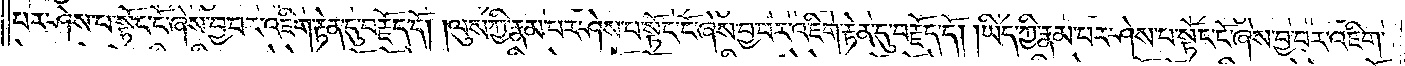པར་ཤེས་པ་སྟོང་ངོ་ཞེས་བྱ་བར་འཇིག་རྟེན་དུ་བརྗོད་དོ། །ལུས་ཀྱི་རྣམ་པར་ཤེས་པ་སྟོང་ངོ་ཞེས་བྱ་བར་འཇིག་རྟེན་དུ་བརྗོད་དོ། །ཡིད་ཀྱི་རྣམ་པར་ཤེས་པ་སྟོང་ངོ་ཞེས་བྱ་བར་འཇིག་
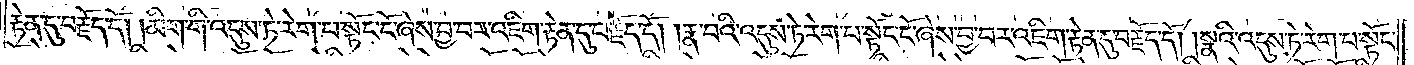རྟེན་དུ་བརྗོད་དོ། །མིག་གི་འདུས་ཏེ་རེག་པ་སྟོང་ངོ་ཞེས་བྱ་བར་འཇིག་རྟེན་དུ་བརྗོད་དོ། །རྣ་བའི་འདུས་ཏེ་རེག་པ་སྟོང་ངོ་ཞེས་བྱ་བར་འཇིག་རྟེན་དུ་བརྗོད་དོ། །སྣའི་འདུས་ཏེ་རེག་པ་སྟོང་
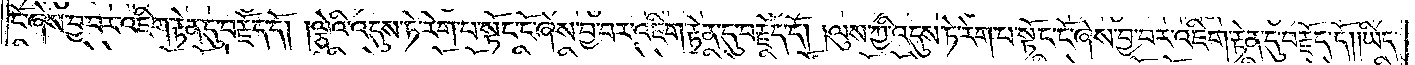ངོ་ཞེས་བྱ་བར་འཇིག་རྟེན་དུ་བརྗོད་དོ། །ལྕེའི་འདུས་ཏེ་རེག་པ་སྟོང་ངོ་ཞེས་བྱ་བར་འཇིག་རྟེན་དུ་བརྗོད་དོ། །ལུས་ཀྱི་འདུས་ཏེ་རེག་པ་སྟོང་ངོ་ཞེས་བྱ་བར་འཇིག་རྟེན་དུ་བརྗོད་དོ། །ཡིད་
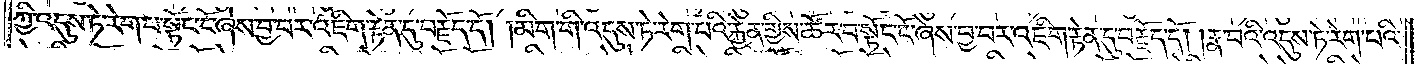ཀྱི་འདུས་ཏེ་རེག་པ་སྟོང་ངོ་ཞེས་བྱ་བར་འཇིག་རྟེན་དུ་བརྗོད་དོ། །མིག་གི་འདུས་ཏེ་རེག་པའི་རྐྱེན་གྱིས་ཚོར་བ་སྟོང་ངོ་ཞེས་བྱ་བར་འཇིག་རྟེན་དུ་བརྗོད་དོ། །རྣ་བའི་འདུས་ཏེ་རེག་པའི་
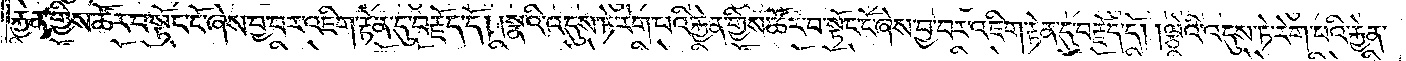རྐྱེན་གྱིས་ཚོར་བ་སྟོང་ངོ་ཞེས་བྱ་བར་འཇིག་རྟེན་དུ་བརྗོད་དོ། །སྣའི་འདུས་ཏེ་རེག་པའི་རྐྱེན་གྱིས་ཚོར་བ་སྟོང་ངོ་ཞེས་བྱ་བར་འཇིག་རྟེན་དུ་བརྗོད་དོ། །ལྕེའི་འདུས་ཏེ་རེག་པའི་རྐྱེན་
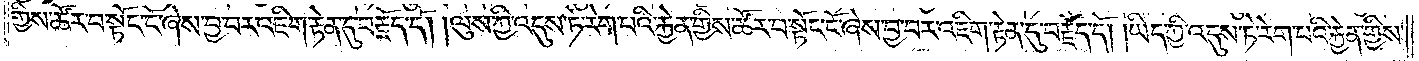གྱིས་ཚོར་བ་སྟོང་ངོ་ཞེས་བྱ་བར་འཇིག་རྟེན་དུ་བརྗོད་དོ། །ལུས་ཀྱི་འདུས་ཏེ་རེག་པའི་རྐྱེན་གྱིས་ཚོར་བ་སྟོང་ངོ་ཞེས་བྱ་བར་འཇིག་རྟེན་དུ་བརྗོད་དོ། །ཡིད་ཀྱི་འདུས་ཏེ་རེག་པའི་རྐྱེན་གྱིས་
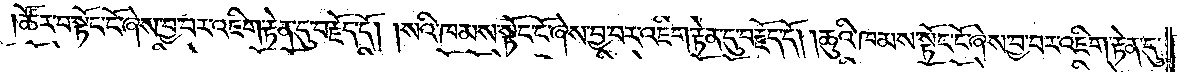ཚོར་བ་སྟོང་ངོ་ཞེས་བྱ་བར་འཇིག་རྟེན་དུ་བརྗོད་དོ། །སའི་ཁམས་སྟོང་ངོ་ཞེས་བྱ་བར་འཇིག་རྟེན་དུ་བརྗོད་དོ། །ཆུའི་ཁམས་སྟོང་ངོ་ཞེས་བྱ་བར་འཇིག་རྟེན་དུ་
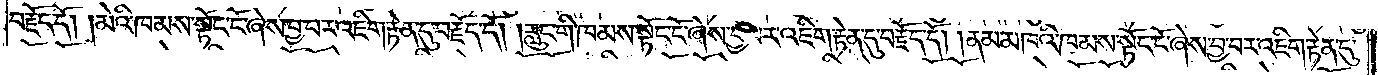བརྗོད་དོ། །མེའི་ཁམས་སྟོང་ངོ་ཞེས་བྱ་བར་འཇིག་རྟེན་དུ་བརྗོད་དོ། །རླུང་གི་ཁམས་སྟོང་ངོ་ཞེས་བྱ་བར་འཇིག་རྟེན་དུ་བརྗོད་དོ། །ནམ་མཁའི་ཁམས་སྟོང་ངོ་ཞེས་བྱ་བར་འཇིག་རྟེན་དུ་
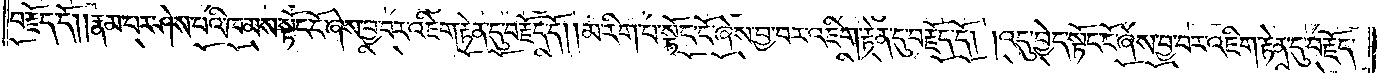བརྗོད་དོ། །རྣམ་པར་ཤེས་པའི་ཁམས་སྟོང་ངོ་ཞེས་བྱ་བར་འཇིག་རྟེན་དུ་བརྗོད་དོ། །མ་རིག་པ་སྟོང་ངོ་ཞེས་བྱ་བར་འཇིག་རྟེན་དུ་བརྗོད་དོ། །འདུ་བྱེད་སྟོང་ངོ་ཞེས་བྱ་བར་འཇིག་རྟེན་དུ་བརྗོད་
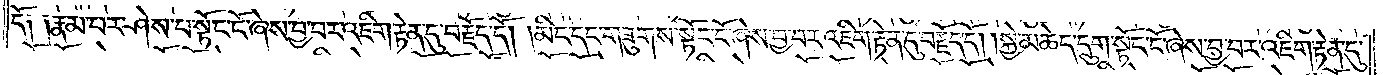དོ༑ ༑རྣམ་པར་ཤེས་པ་སྟོང་ངོ་ཞེས་བྱ་བར་འཇིག་རྟེན་དུ་བརྗོད་དོ། །མིང་དང་གཟུགས་སྟོང་ངོ་ཞེས་བྱ་བར་འཇིག་རྟེན་དུ་བརྗོད་དོ། །སྐྱེ་མཆེད་དྲུག་སྟོང་ངོ་ཞེས་བྱ་བར་འཇིག་རྟེན་དུ་
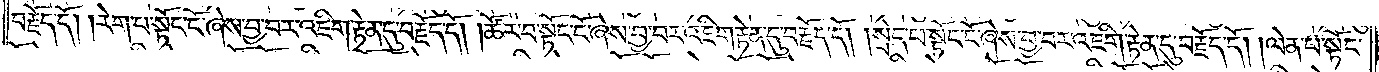བརྗོད་དོ། །རེག་པ་སྟོང་ངོ་ཞེས་བྱ་བར་འཇིག་རྟེན་དུ་བརྗོད་དོ། །ཚོར་བ་སྟོང་ངོ་ཞེས་བྱ་བར་འཇིག་རྟེན་དུ་བརྗོད་དོ། །སྲེད་པ་སྟོང་ངོ་ཞེས་བྱ་བར་འཇིག་རྟེན་དུ་བརྗོད་དོ། །ལེན་པ་སྟོང་
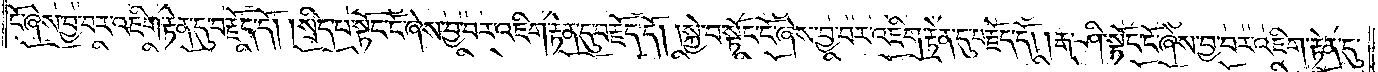ངོ་ཞེས་བྱ་བར་འཇིག་རྟེན་དུ་བརྗོད་དོ། །སྲིད་པ་སྟོང་ངོ་ཞེས་བྱ་བར་འཇིག་རྟེན་དུ་བརྗོད་དོ། །སྐྱེ་བ་སྟོང་ངོ་ཞེས་བྱ་བར་འཇིག་རྟེན་དུ་བརྗོད་དོ། །རྒ་ཤི་སྟོང་ངོ་ཞེས་བྱ་བར་འཇིག་རྟེན་དུ་
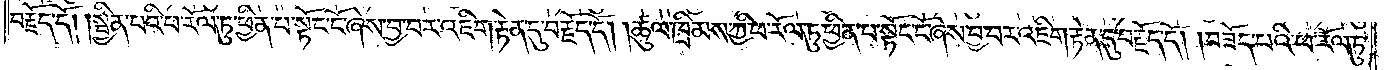བརྗོད་དོ། །སྦྱིན་པའི་ཕ་རོལ་ཏུ་ཕྱིན་པ་སྟོང་ངོ་ཞེས་བྱ་བར་འཇིག་རྟེན་དུ་བརྗོད་དོ། །ཚུལ་ཁྲིམས་ཀྱི་ཕ་རོལ་ཏུ་ཕྱིན་པ་སྟོང་ངོ་ཞེས་བྱ་བར་འཇིག་རྟེན་དུ་བརྗོད་དོ། །བཟོད་པའི་ཕ་རོལ་ཏུ་
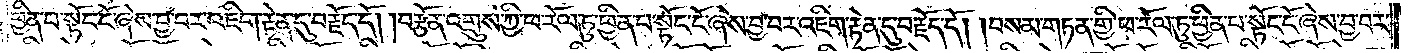ཕྱིན་པ་སྟོང་ངོ་ཞེས་བྱ་བར་འཇིག་རྟེན་དུ་བརྗོད་དོ། །བརྩོན་འགྲུས་ཀྱི་ཕ་རོལ་ཏུ་ཕྱིན་པ་སྟོང་ངོ་ཞེས་བྱ་བར་འཇིག་རྟེན་དུ་བརྗོད་དོ། །བསམ་གཏན་གྱི་ཕ་རོལ་ཏུ་ཕྱིན་པ་སྟོང་ངོ་ཞེས་བྱ་བར་
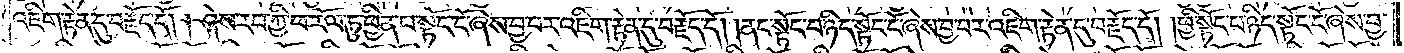འཇིག་རྟེན་དུ་བརྗོད་དོ། །ཤེས་རབ་ཀྱི་ཕ་རོལ་ཏུ་ཕྱིན་པ་སྟོང་ངོ་ཞེས་བྱ་བར་འཇིག་རྟེན་དུ་བརྗོད་དོ། །ནང་སྟོང་པ་ཉིད་སྟོང་ངོ་ཞེས་བྱ་བར་འཇིག་རྟེན་དུ་བརྗོད་དོ། །ཕྱི་སྟོང་པ་ཉིད་སྟོང་ངོ་ཞེས་བྱ་
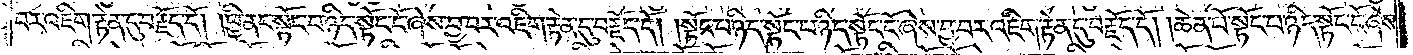བར་འཇིག་རྟེན་དུ་བརྗོད་དོ། །ཕྱི་ནང་སྟོང་པ་ཉིད་སྟོང་ངོ་ཞེས་བྱ་བར་འཇིག་རྟེན་དུ་བརྗོད་དོ། །སྟོང་པ་ཉིད་སྟོང་པ་ཉིད་སྟོང་ངོ་ཞེས་བྱ་བར་འཇིག་རྟེན་དུ་བརྗོད་དོ། །ཆེན་པོ་སྟོང་པ་ཉིད་སྟོང་ངོ་ཞེས་
